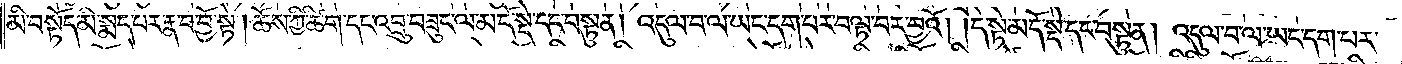མི་བསྟོད་མི་སྨད་པར་རྣ་བ་བྱོ་སྟེ། ཆོས་ཀྱི་ཚིག་དང་འབྲུ་བཟུང་ལ་མདོ་སྡེ་དང་བསྟུན། འདུལ་བ་ལ་ཡང་དག་པར་བལྟ་བར་བྱའོ། །དེ་སྟེ་མདོ་སྡེ་དང་བསྟུན། འདུལ་བ་ལ་ཡང་དག་པར་
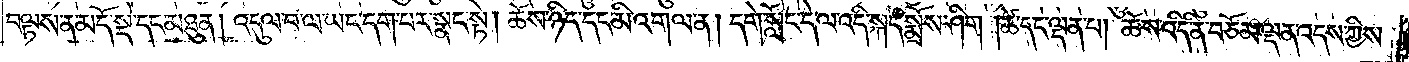བལྟས་ན་མདོ་སྡེ་དང་མཐུན། འདུལ་བ་ལ་ཡང་དག་པར་སྣང་སྟེ། ཆོས་ཉིད་དང་མི་འགལ་ན། དགེ་སློང་དེ་ལ་འདི་སྐད་སྨྲོས་ཤིག །ཚེ་དང་ལྡན་པ། ཆོས་འདི་ནི་བཅོམ་ལྡན་འདས་ཀྱིས་
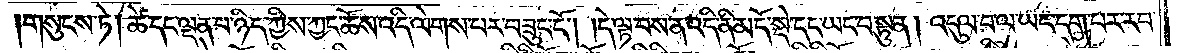གསུངས་ཏེ། ཚེ་དང་ལྡན་པ་ཉིད་ཀྱིས་ཀྱང་ཆོས་འདི་ལེགས་པར་བཟུང་ངོ༌། །དེ་ལྟ་བས་ན་འདི་ནི་མདོ་སྡེ་དང་ཡང་བསྟུན། འདུལ་བ་ལ་ཡང་དག་པར་རབ་
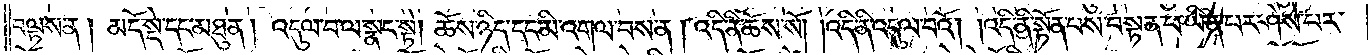བལྟས་ན། མདོ་སྡེ་དང་མཐུན། འདུལ་བ་ལ་སྣང་སྟེ། ཆོས་ཉིད་དང་མི་འགལ་བས་ན་།འདི་ནི་ཆོས་སོ། །འདི་ནི་འདུལ་བའོ། །འདི་ནི་སྟོན་པས་བསྟན་པ་ཡིན་པར་ཤེས་པར་
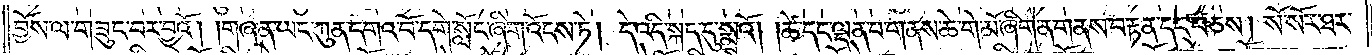བྱོས་ལ་གཟུང་བར་བྱའོ། །གཞན་ཡང་ཀུན་དགའ་བོ་དགེ་སློང་ཞིག་འོངས་ཏེ། དེ་འདི་སྐད་དུ་སྨྲའོ། །ཚེ་དང་ལྡན་པ་གནས་ཆེ་གེ་མོ་ཞིག་ན་གནས་བརྟན་དང་བཅས། སོ་སོར་ཐར་
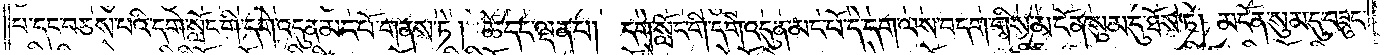པ་དང་བཅས་པའི་དགེ་སློང་གི་དགེ་འདུན་མང་པོ་གནས་ཏེ། ཚེ་དང་ལྡན་པ། དགེ་སློང་གི་དགེ་འདུན་མང་པོ་དེ་དག་ལས་བདག་གིས་མངོན་སུམ་དུ་ཐོས་ཏེ། མངོན་སུམ་དུ་བཟུང་
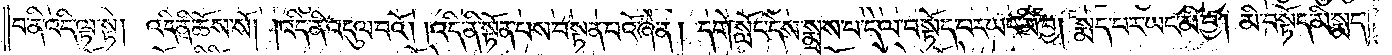བ་ནི་འདི་ལྟ་སྟེ། འདི་ནི་ཆོས་སོ། །འདི་ནི་འདུལ་བའོ། །འདི་ནི་སྟོན་པས་བསྟན་པའོ་ཞེ་ན། དགེ་སློང་དེས་སྨྲས་པ་དེ་ལ་བསྟོད་པར་ཡང་མི་བྱ། སྨད་པར་ཡང་མི་བྱ། མི་བསྟོད་མི་སྨད་
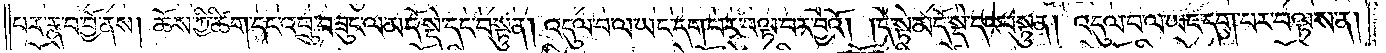པར་རྣ་བ་བྱོ་ནས། ཆོས་ཀྱི་ཚིག་དང་འབྲུ་བཟུང་ལ་མདོ་སྡེ་དང་བསྟུན། འདུལ་བ་ལ་ཡང་དག་པར་བལྟ་བར་བྱའོ། །དེ་སྟེ་མདོ་སྡེ་དང་བསྟུན། འདུལ་བ་ལ་ཡང་དག་པར་བལྟས་ན།
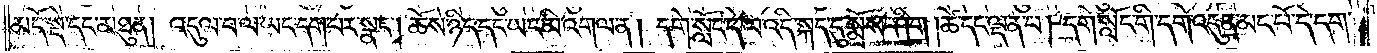མདོ་སྡེ་དང་མཐུན། འདུལ་བ་ལ་ཡང་དག་པར་སྣང༌། ཆོས་ཉིད་དང་ཡང་མི་འགལ་ན། དགེ་སློང་དེ་ལ་འདི་སྐད་དུ་སྨྲོས་ཤིག །ཚེ་དང་ལྡན་པ། དགེ་སློང་གི་དགེ་འདུན་མང་པོ་དེ་དག་
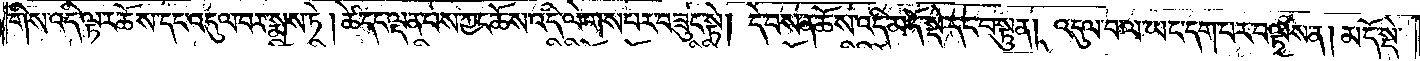གིས་འདི་ལྟར་ཆོས་དང་འདུལ་བར་སྨྲས་ཏེ། ཚེ་དང་ལྡན་པས་ཀྱང་ཆོས་འདི་ལེགས་པར་བཟུང་སྟེ། དེ་བས་ན་ཆོ་ས་འདི་མདོ་སྡེ་དང་བསྟུན། འདུལ་བ་ལ་ཡང་དག་པར་བལྟས་ན། མདོ་སྡེ་
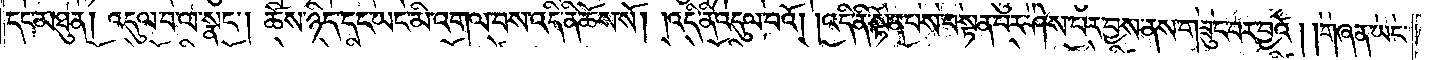དང་མཐུན། འདུལ་བ་ལ་སྣང༌། ཆོས་ཉིད་དང་ཡང་མི་འགལ་བས་འདི་ནི་ཆོས་སོ། །འདི་ནི་འདུལ་བའོ། །འདི་ནི་སྟོན་པས་བསྟན་པར་ཤེས་པར་བྱས་ནས་གཟུང་བར་བྱའོ། །གཞན་ཡང་
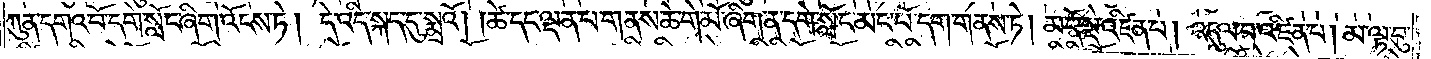ཀུན་དགའ་བོ་དགེ་སློང་ཞིག་འོངས་ཏེ། དེ་འདི་སྐད་དུ་སྨྲའོ། །ཚེ་དང་ལྡན་པ་གནས་ཆེ་གེ་མོ་ཞིག་ན་དགེ་སློང་མང་པོ་དག་གནས་ཏེ། མདོ་སྡེ་འཛིན་པ། འདུལ་བ་འཛིན་པ། མ་ལྟ་བུ་
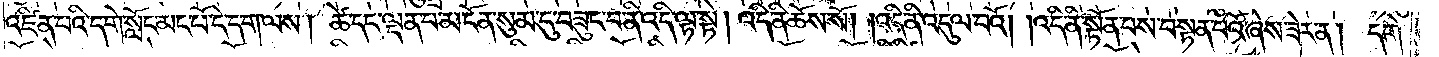འཛིན་པའི་དགེ་སློང་མང་པོ་དེ་དག་ལས། ཚེ་དང་ལྡན་པ་མངོན་སུམ་དུ་བཟུང་བ་ནི་འདི་ལྟ་སྟེ། འདི་ནི་ཆོས་སོ། །འདི་ནི་འདུལ་བའོ། །འདི་ནི་སྟོན་པས་བསྟན་པའོ་ཞེས་ཟེར་ན། དགེ་
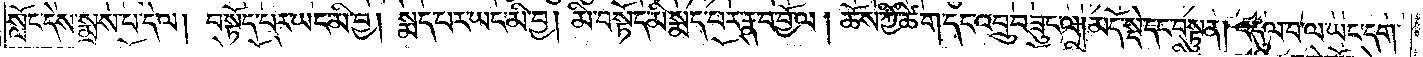སློང་དེས་སྨྲས་པ་དེ་ལ། བསྟོད་པར་ཡང་མི་བྱ། སྨད་པར་ཡང་མི་བྱ། མི་བསྟོད་མི་སྨད་པར་རྣ་བ་བྱོ་ལ། ཆོས་ཀྱི་ཚིག་དང་འབྲུ་བཟུང་ལ། མདོ་སྡེ་དང་བསྟུན། འདུལ་བ་ལ་ཡང་དག་
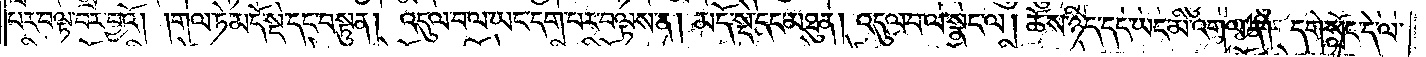པར་བལྟ་བར་བྱའོ། །གལ་ཏེ་མདོ་སྡེ་དང་བསྟུན། འདུལ་བ་ལ་ཡང་དག་པར་བལྟས་ན། མདོ་སྡེ་དང་མཐུན། འདུལ་བ་ལ་སྣང་ལ། ཆོས་ཉིད་དང་ཡང་མི་འགལ་ན། དགེ་སློང་དེ་ལ་
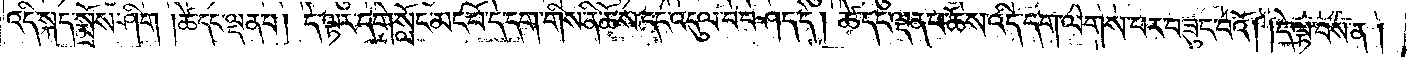འདི་སྐད་སྨྲོས་ཤིག །ཚེ་དང་ལྡན་པ། དེ་ལྟར་དགེ་སློང་མང་པོ་དེ་དག་གིས་ནི་ཆོས་དང་འདུལ་བ་བཤད་དེ། ཚེ་དང་ལྡན་པ་ཆོས་འདི་དག་ལེགས་པར་བཟུང་བའོ། །དེ་ལྟ་བས་ན།
